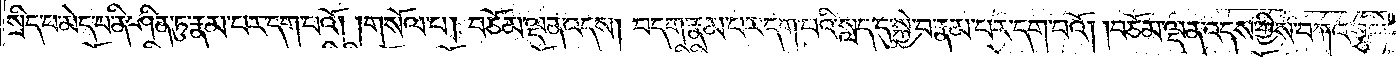སྲིད་པ་མེད་པ་ནི་ཤིན་ཏུ་རྣམ་པར་དག་པའོ། །གསོལ་པ། བཅོམ་ལྡན་འདས། བདག་རྣམ་པར་དག་པའི་སླད་དུ་སྐྱེ་བ་རྣམ་པར་དག་པའོ། །བཅོམ་ལྡན་འདས་ཀྱིས་བཀའ་སྩལ་
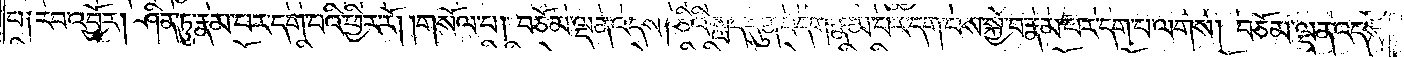པ༑ རབ་འབྱོར། ཤིན་ཏུ་རྣམ་པར་དག་པའི་ཕྱིར་རོ། །གསོལ་པ། བཅོམ་ལྡན་འདས། ཅིའི་སླད་དུ་ན་བདག་རྣམ་པར་དག་པས་སྐྱེ་བ་རྣམ་པར་དག་པ་ལགས། བཅོམ་ལྡན་འདས་
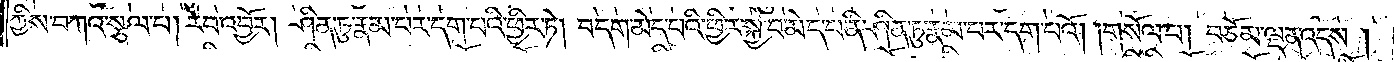ཀྱིས་བཀའ་སྩལ་པ། རབ་འབྱོར། ཤིན་ཏུ་རྣམ་པར་དག་པའི་ཕྱིར་ཏེ། བདག་མེད་པའི་ཕྱིར་སྐྱེ་བ་མེད་པ་ནི་ཤིན་ཏུ་རྣམ་པར་དག་པའོ། །གསོལ་པ། བཅོམ་ལྡན་འདས།
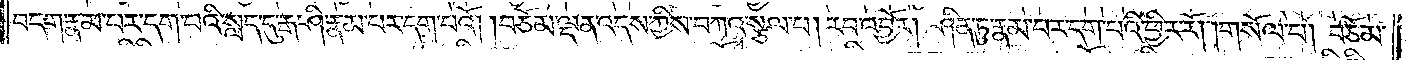བདག་རྣམ་པར་དག་པའི་སླད་དུ་རྒ་ཤི་རྣམ་པར་དག་པའོ། །བཅོམ་ལྡན་འདས་ཀྱིས་བཀའ་སྩལ་པ། རབ་འབྱོར། ཤིན་ཏུ་རྣམ་པར་དག་པའི་ཕྱིར་རོ། །གསོལ་པ། བཅོམ་
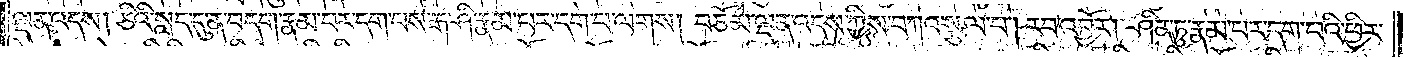ལྡན་འདས། ཅིའི་སླད་དུ་ན་བདག་རྣམ་པར་དག་པས་རྒ་ཤི་རྣམ་པར་དག་པ་ལགས། བཅོམ་ལྡན་འདས་ཀྱིས་བཀའ་སྩལ་པ། རབ་འབྱོར། ཤིན་ཏུ་རྣམ་པར་དག་པའི་ཕྱིར་
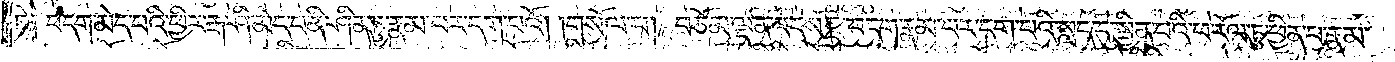ཏེ༑ བདག་མེད་པའི་ཕྱིར་རྒ་ཤི་མེད་པ་ནི་ཤིན་ཏུ་རྣམ་པར་དག་པའོ། །གསོལ་པ། བཅོམ་ལྡན་འདས། བདག་རྣམ་པར་དག་པའི་སླད་དུ་སྦྱིན་པའི་ཕ་རོལ་ཏུ་ཕྱིན་པ་རྣམ་
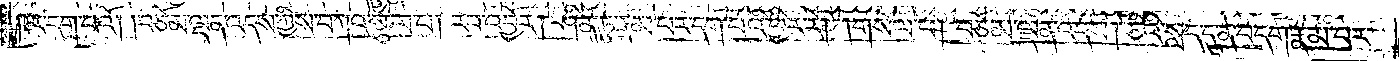པར་དག་པའོ། །བཅོམ་ལྡན་འདས་ཀྱིས་བཀའ་སྩལ་པ། རབ་འབྱོར། ཤིན་ཏུ་རྣམ་པར་དག་པའི་ཕྱིར་རོ། །གསོལ་པ། བཅོམ་ལྡན་འདས། ཅིའི་སླད་དུ་ན་བདག་རྣམ་པར་
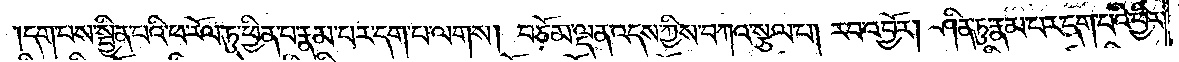དག་པས་སྦྱིན་པའི་ཕ་རོལ་ཏུ་ཕྱིན་པ་རྣམ་པར་དག་པ་ལགས། བཅོམ་ལྡན་འདས་ཀྱིས་བཀའ་སྩལ་པ། རབ་འབྱོར། ཤིན་ཏུ་རྣམ་པར་དག་པའི་ཕྱིར་
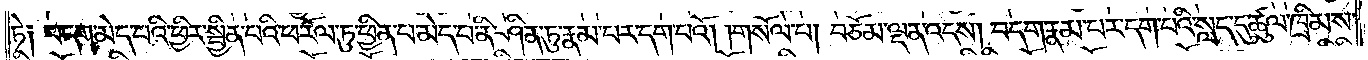ཏེ༑ བདག་མེད་པའི་ཕྱིར་སྦྱིན་པའི་ཕ་རོལ་ཏུ་ཕྱིན་པ་མེད་པ་ནི་ཤིན་ཏུ་རྣམ་པར་དག་པའོ། །གསོལ་པ། བཅོམ་ལྡན་འདས། བདག་རྣམ་པར་དག་པའི་སླད་དུ་ཚུལ་ཁྲིམས་
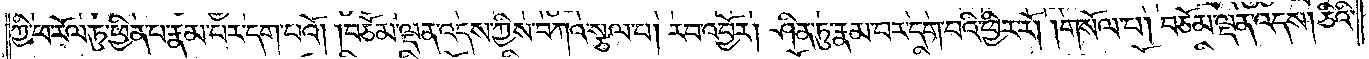ཀྱི་ཕ་རོལ་ཏུ་ཕྱིན་པ་རྣམ་པར་དག་པའོ། །བཅོམ་ལྡན་འདས་ཀྱིས་བཀའ་སྩལ་པ། རབ་འབྱོར། ཤིན་ཏུ་རྣམ་པར་དག་པའི་ཕྱིར་རོ། །གསོལ་པ། བཅོམ་ལྡན་འདས། ཅིའི་
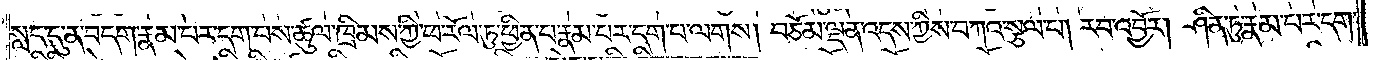སླད་དུ་ན་བདག་རྣམ་པར་དག་པས་ཚུལ་ཁྲིམས་ཀྱི་ཕ་རོལ་ཏུ་ཕྱིན་པ་རྣམ་པར་དག་པ་ལགས། བཅོམ་ལྡན་འདས་ཀྱིས་བཀའ་སྩལ་པ། རབ་འབྱོར། ཤིན་ཏུ་རྣམ་པར་དག་
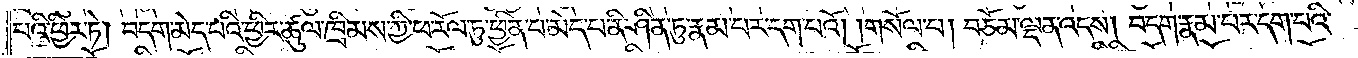པའི་ཕྱིར་ཏེ། བདག་མེད་པའི་ཕྱིར་ཚུལ་ཁྲིམས་ཀྱི་ཕ་རོལ་ཏུ་ཕྱིན་པ་མེད་པ་ནི་ཤིན་ཏུ་རྣམ་པར་དག་པའོ། །གསོལ་པ། བཅོམ་ལྡན་འདས། བདག་རྣམ་པར་དག་པའི་
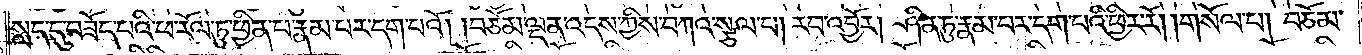སླད་དུ་བཟོད་པའི་ཕ་རོལ་ཏུ་ཕྱིན་པ་རྣམ་པར་དག་པའོ། །བཅོམ་ལྡན་འདས་ཀྱིས་བཀའ་སྩལ་པ། རབ་འབྱོར། ཤིན་ཏུ་རྣམ་པར་དག་པའི་ཕྱིར་རོ། །གསོལ་པ། བཅོམ་
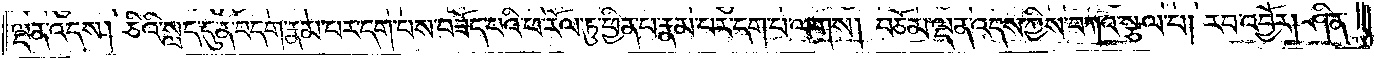ལྡན་འདས། ཅིའི་སླད་དུ་ན་བདག་རྣམ་པར་དག་པས་བཟོད་པའི་ཕ་རོལ་ཏུ་ཕྱིན་པ་རྣམ་པར་དག་པ་ལགས། བཅོམ་ལྡན་འདས་ཀྱིས་བཀའ་སྩལ་པ། རབ་འབྱོར། ཤིན་
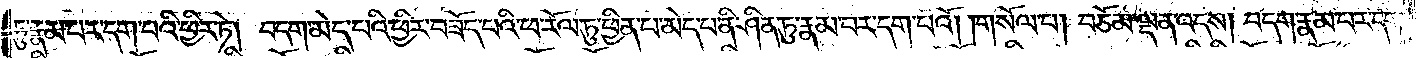ཏུ་རྣམ་པར་དག་པའི་ཕྱིར་ཏེ། བདག་མེད་པའི་ཕྱིར་བཟོད་པའི་ཕ་རོལ་ཏུ་ཕྱིན་པ་མེད་པ་ནི་ཤིན་ཏུ་རྣམ་པར་དག་པའོ། །གསོལ་པ། བཅོམ་ལྡན་འདས། བདག་རྣམ་པར་དག་
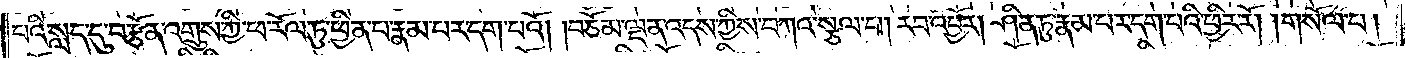པའི་སླད་དུ་བརྩོན་འགྲུས་ཀྱི་ཕ་རོལ་ཏུ་ཕྱིན་པ་རྣམ་པར་དག་པའོ། །བཅོམ་ལྡན་འདས་ཀྱིས་བཀའ་སྩལ་པ། རབ་འབྱོར། ཤིན་ཏུ་རྣམ་པར་དག་པའི་ཕྱིར་རོ། །གསོལ་པ།
